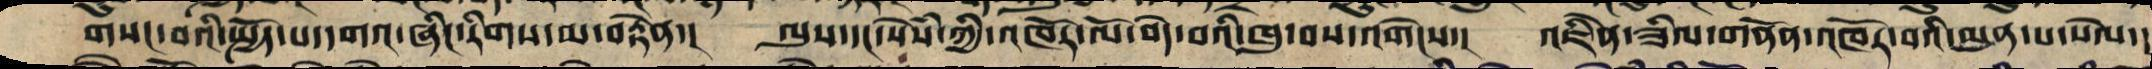གསང་བའི་སྤྱོད་པ་དགའ་ཞིང་རིགས་མ་བརྟེན་། ལུས་དང་སེཾས་ཀྱི་འཁོར་ལོ་བདེ་བའི་ཁུ་བས་འགེངས་། འཇིེན་ཟིལ་གནོན་འཁོར་བའི་མུན་པ་སེལ་།
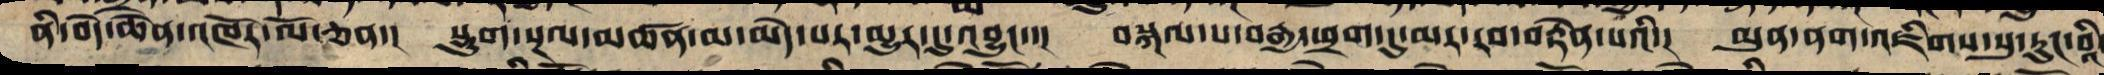ནི་བདེ་ཆེོན་འཁོར་ལོ་ཅན་། སྡུག་སྔལ་མཚན་མ་མེད་པར་མྱུར་དུ་འབྱུང་་། བསྐལ་པ་བརྒྱ་ཕྲག་དུ་མར་རབ་བརྟེན་པའི་། མུན་ནག་འཇིགས་སུ་རུང་བའི་
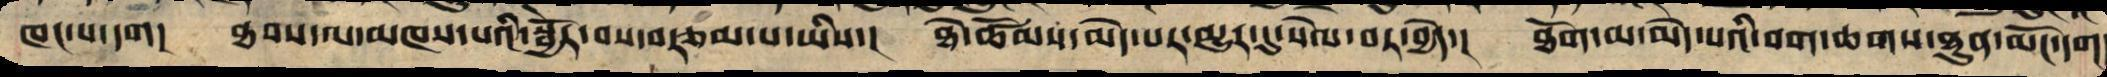ཁང་པ་དག། ཐབས་ལ་མཁས་པའི་སྦྱོར་བས་བརྩམས་པ་ཡིས་། ཐེ་ཚོམས་མེད་པར་མྱུར་དུ་སེལ་བར་བྱེད་། ཐོག་མ་མེད་པའི་བག་ཆགས་ཐུན་མོང་དག
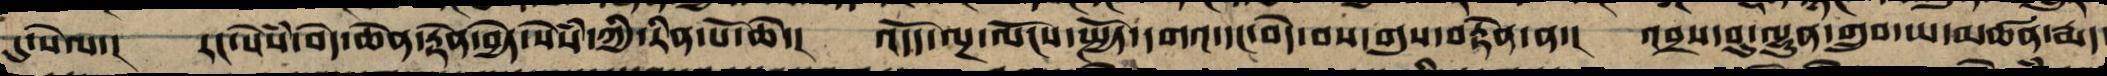དུ་སེལ་། རང་སེཾས་བདེ་ཆེན་རྟེན་བྱེད་སེཾས་ཀྱི་རིན་པོ་ཆེ་། འདོད་ལྔ་ལོངས་སྤྱོད་དགའ་དང་བདེ་བས་གུས་བརྟེན་ན་། འབྲས་བུ་ལྷུན་གྲུབ་ཡ་མཚན་རྨད
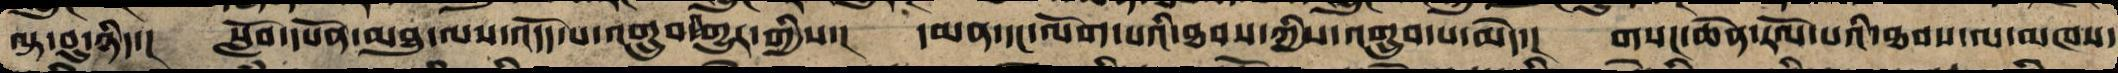ལྟ་བུ་ཉིད་། སློབ་དཔོན་མཐུ་ལས་འདོད་པ་འགྲུབ་འགྱུར་གྱིས་། དམན་དང་ལོག་པའི་ཐབས་ཀྱིས་འགྲུབ་པ་མེད་། གསང་ཆེན་རོལ་པའི་ཐབས་ལ་མཁས་
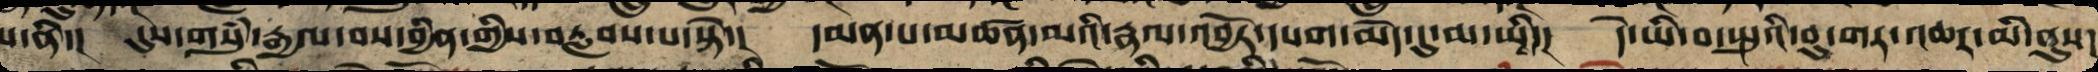པ་ནི་། དུས་གསུཾ་རྒྱལ་བས་བྱིན་གྱིས་བརླབས་པ་སྟེ་། དམན་པ་མཚན་མའི་རྣལ་འབྱོར་དཔག་མེད་དུ་མ་ཡི་། དེ་ཡི་བ་སྤུའི་བུ་གར་འཆར་མི་ནུས་
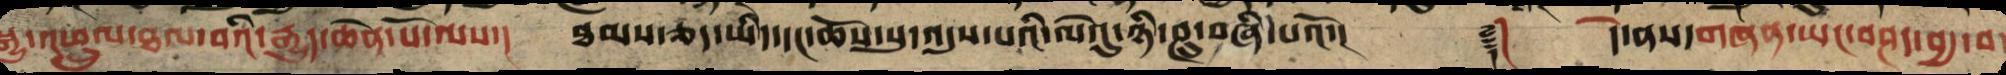སྒྱུ་འཕྲུལ་ཐལ་བའི་རྒྱུད་ཆེན་པོ་ལས་། ཐཾད་ཡིད་དང་ཆོས་སུ་འདུས་པའི་ལེའུ་སྟེ་ཉི་ཤུ་བཞི་པའོ་།། ༈། དེ་ནས་གཞན་ཡང་བཤད་བྱ་བ་
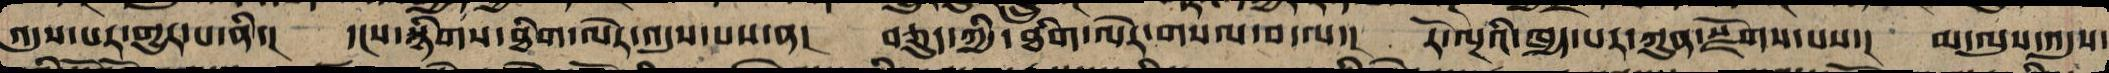འདུས་པར་གྱུར་པ་ནི་། དྭངས་སྙིགས་ཐིག་ལེར་འདུས་པས་ན་། བཅུད་ཀྱི་ཐིག་ལེར་གསལ་བ་ལ་། རོ་ལྔའི་ཁྱད་པར་ཀུན་སྫོགས་པས་། མ་ལུས་འདུས་
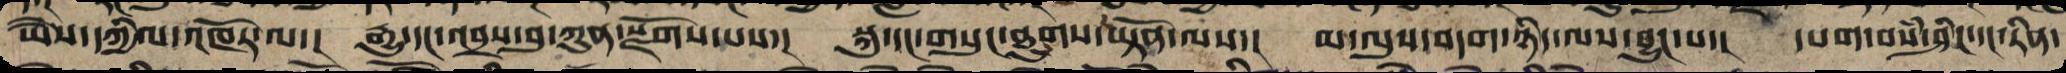ཡཻས་དཀྱིལ་འཁོར་ལ་། རྒྱུ་དང་འབྲས་བུ་ཀུན་སྫོགས་པས་། སྐུ་དང་གསུང་ཐུགས་ཡྟོན་ལས་། མ་ལུས་བདག་ཉིད་ལས་བྱུང་བ་། དཔག་བསཾ་ཤིང་དང་རིན་
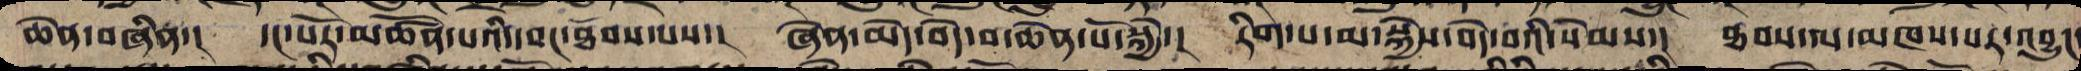ཆེན་བཞིན་། དང་པོར་མཚོན་པའི་དབང་ཐོབ་པས་། ཞེན་མེད་བདེ་བ་ཆེན་པོ་སྐྱེ་། རིག་པ་མ་སྐྱེས་བདེ་བའི་སེམས་། ཐབས་ལ་མཁས་པ་འབྱུང
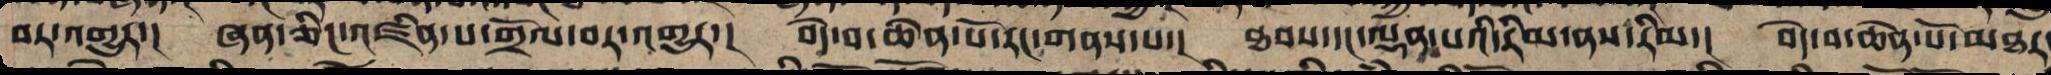བར་འགྱུར་། ཞན་ཅིང་འཛིན་པ་གྲོལ་བར་འགྱུར་། བདེ་བ་ཆེན་པོར་རང་གནས་པ་། ཐབས་དང་ལྡན་པའི་རིམ་ནས་རིམ་། བདེ་བ་ཆེན་པོར་མཐར
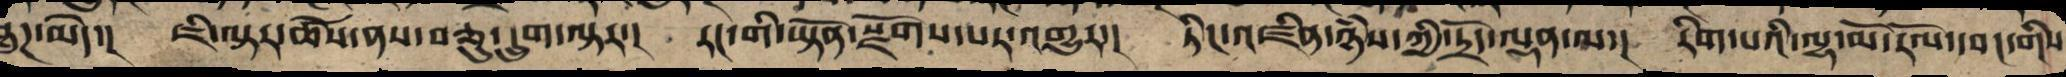ཐུཌ་མེད་། ཇི་ལྟར་ཚེས་ནས་བཅུ་དྲུག་ལྟར་། རང་གི་ཡྟོན་སྫོགས་པར་འགྱུར་། ཏིང་འཛིན་ཉཾས་ཀྱི་དྲོད་ལྡན་ལ་། རིག་པའི་ལྷ་མོ་རོལ་དབང་གིས
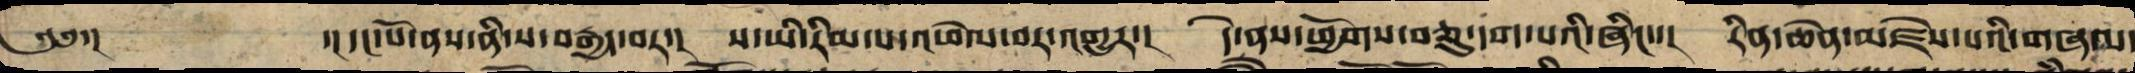༄༅་། ་།དང་པོ་ནས་ནི་ས་བརྒྱད་བར་། ས་ཡི་རིམ་པ་འཕེལ་བར་འགྱུར་། དེ་ནས་ཕྱོགས་བཅུ་དག་པའི་ཞིང་་། རིན་ཆེན་མཛེས་པའི་གཞལ་
